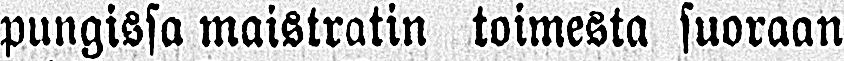pungissa maistratin toimesta suoraan
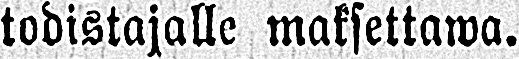todistajalle maksettawa.
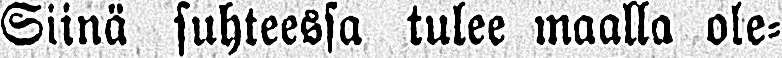Siinä suhteessa tulee maalla ole-
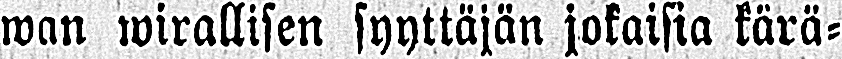wan wirallisen syyttäjän jokaisia kärä-
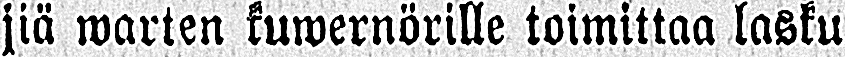jiä warten kuwernörille toimittaa lasku
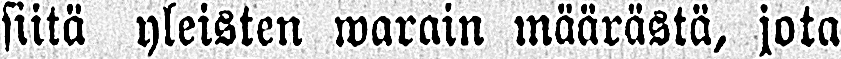siitä yleisten warain määrästä, jota
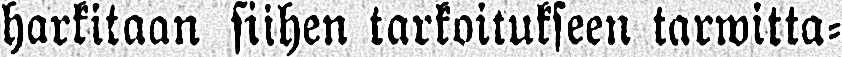harkitaan siihen tarkoitukseen tarwitta-
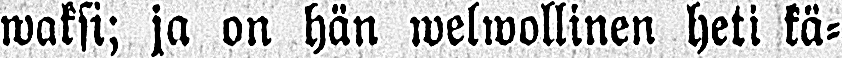waksi; ja on hän welwollinen heti kä-
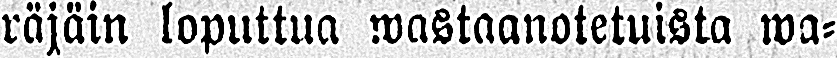räjäin loputtua wastaanotetuista wa-
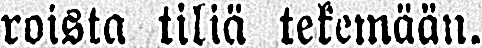roista tiliä tekemään.
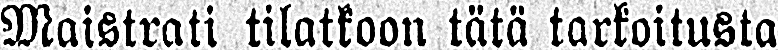Maistrati tilatkoon tätä tarkoitusta
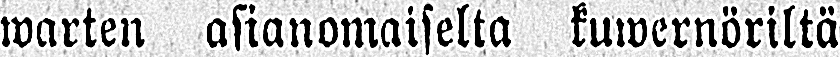warten asianomaiselta kuwernöriltä
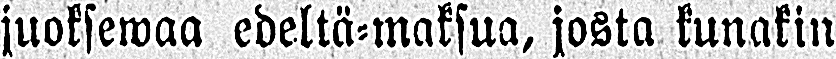juoksewaa edeltä-maksua, josta kunakin
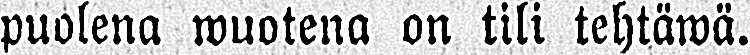puolena wuotena on tili tehtäwä.
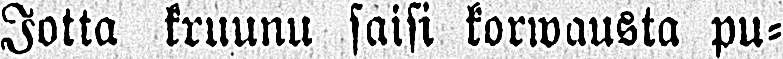Jotta kruunu saisi korwausta pu-
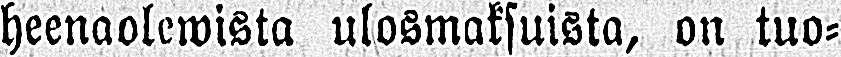heenaolewista ulosmaksuista, on tuo-
